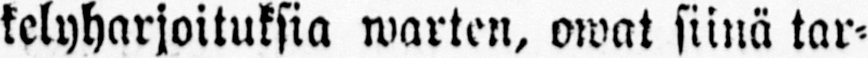kclyharjoituksia warten, owat siinä tar-
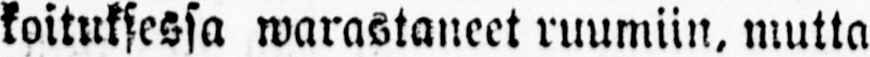koituksessa warastaneet ruumiin, mutta
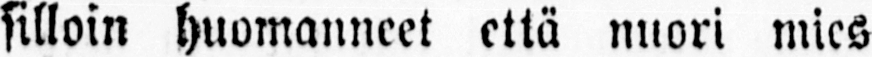silloin huomanneet että nuori mies
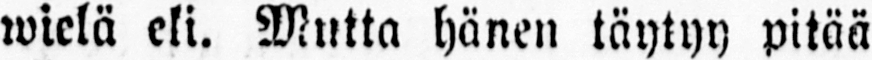wielä eli. Mutta hänen täytyy pitää
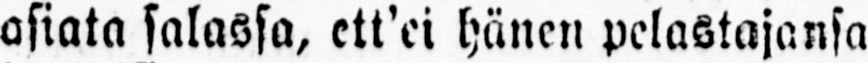osiota salassa, ett'ei hänen pelastajansa
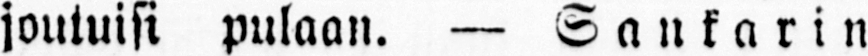joutuisi pulaan. — Sankarin
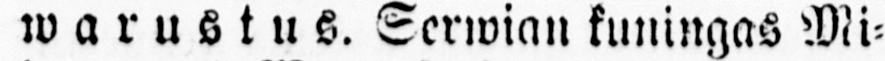warustus. Serwian kuningas Mi-
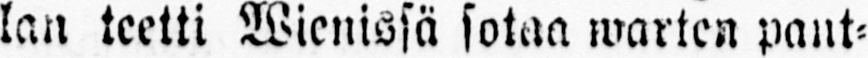lan teetti Wienissä sotaa warten pant-
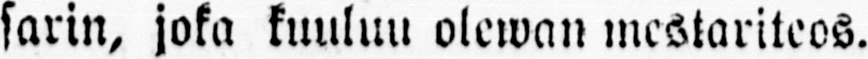sarin, joka kuuluu olewan mestariteos.
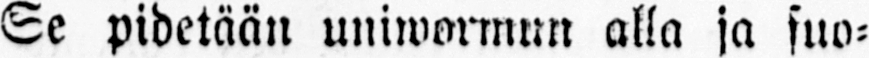Se pidetään unhiwonnun alla ja suo-
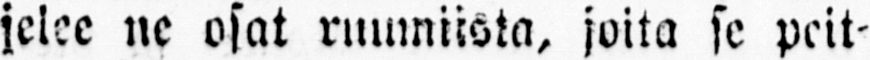jelee ne osat ruumiista, joita se peit-
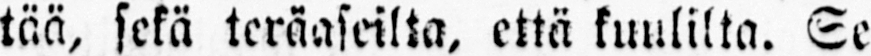tää, sekä teräaseilta, että kuulilta. Se
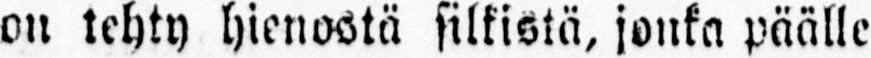on tehty hieuostä silkistä, jonka päälle
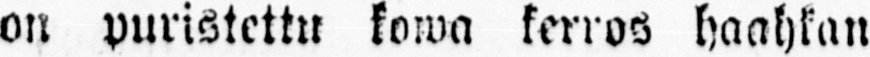on puristettu korwa kerros haahkan
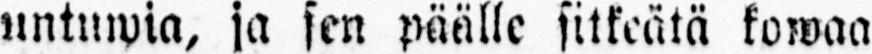untwpia, ja sen päälle sitkeätä kowaa
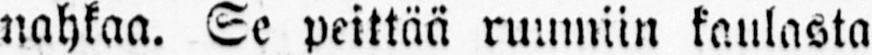nahkaa. Se peittää ruumiin kaulasta
